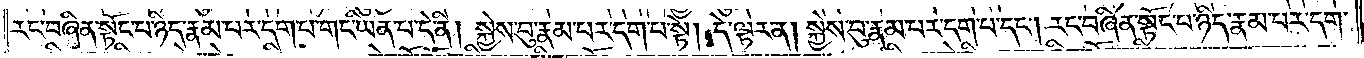རང་བཞིན་སྟོང་པ་ཉིད་རྣམ་པར་དག་པ་གང་ཡིན་པ་དེ་ནི། སྐྱེས་བུ་རྣམ་པར་དག་པ་སྟེ། དེ་ལྟར་ན། སྐྱེས་བུ་རྣམ་པར་དག་པ་དང༌། རང་བཞིན་སྟོང་པ་ཉིད་རྣམ་པར་དག་
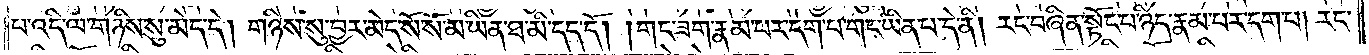པ་འདི་ལ་གཉིས་སུ་མེད་དེ། གཉིས་སུ་བྱར་མེད་སོ་སོ་མ་ཡིན་ཐ་མི་དད་དོ། །གང་ཟག་རྣམ་པར་དག་པ་གང་ཡིན་པ་དེ་ནི། རང་བཞིན་སྟོང་པ་ཉིད་རྣམ་པར་དག་པ། རང་
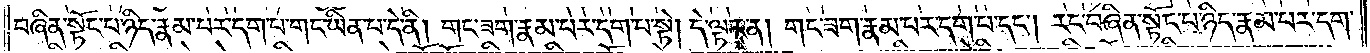བཞིན་སྟོང་པ་ཉིད་རྣམ་པར་དག་པ་གང་ཡིན་པ་དེ་ནི། གང་ཟག་རྣམ་པར་དག་པ་སྟེ། དེ་ལྟར་ན། གང་ཟག་རྣམ་པར་དག་པ་དང༌། རང་བཞིན་སྟོང་པ་ཉིད་རྣམ་པར་དག་
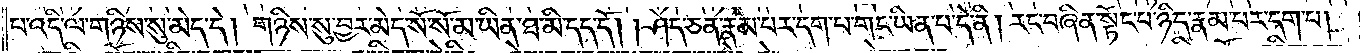པ་འདི་ལ་གཉིས་སུ་མེད་དེ། གཉིས་སུ་བྱར་མེད་སོ་སོ་མ་ཡིན་ཐ་མི་དད་དོ། །ཤེད་ཅན་རྣམ་པར་དག་པ་གང་ཡིན་པ་དེ་ནི། རང་བཞིན་སྟོང་པ་ཉིད་རྣམ་པར་དག་པ།
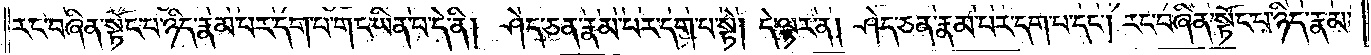རང་བཞིན་སྟོང་པ་ཉིད་རྣམ་པར་དག་པ་གང་ཡིན་པ་དེ་ནི། ཤེད་ཅན་རྣམ་པར་དག་པ་སྟེ། དེ་ལྟར་ན། ཤེད་ཅན་རྣམ་པར་དག་པ་དང༌། རང་བཞིན་སྟོང་པ་ཉིད་རྣམ་
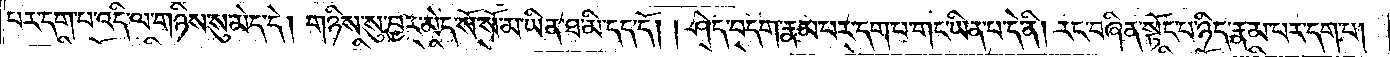པར་དག་པ་འདི་ལ་གཉིས་སུ་མེད་དེ། གཉིས་སུ་བྱར་མེད་སོ་སོ་མ་ཡིན་ཐ་མི་དད་དོ། །ཤེད་བདག་རྣམ་པར་དག་པ་གང་ཡིན་པ་དེ་ནི། རང་བཞིན་སྟོང་པ་ཉིད་རྣམ་པར་དག་པ།
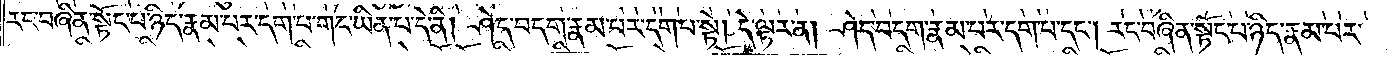རང་བཞིན་སྟོང་པ་ཉིད་རྣམ་པར་དག་པ་གང་ཡིན་པ་དེ་ནི། ཤེད་བདག་རྣམ་པར་དག་པ་སྟེ། དེ་ལྟར་ན། ཤེད་བདག་རྣམ་པར་དག་པ་དང༌། རང་བཞིན་སྟོང་པ་ཉིད་རྣམ་པར་
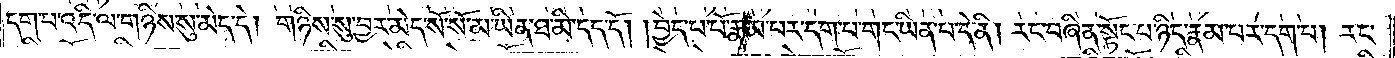དག་པ་འདི་ལ་གཉིས་སུ་མེད་དེ། གཉིས་སུ་བྱར་མེད་སོ་སོ་མ་ཡིན་ཐ་མི་དད་དོ། །བྱེད་པ་པོ་རྣམ་པར་དག་པ་གང་ཡིན་པ་དེ་ནི། རང་བཞིན་སྟོང་པ་ཉིད་རྣམ་པར་དག་པ། རང་
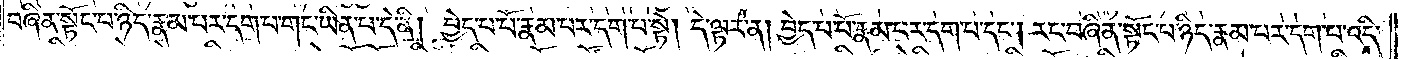བཞིན་སྟོང་པ་ཉིད་རྣམ་པར་དག་པ་གང་ཡིན་པ་དེ་ནི། བྱེད་པ་པོ་རྣམ་པར་དག་པ་སྟེ། དེ་ལྟར་ན། བྱེད་པ་པོ་རྣམ་པར་དག་པ་དང༌། རང་བཞིན་སྟོང་པ་ཉིད་རྣམ་པར་དག་པ་འདི་
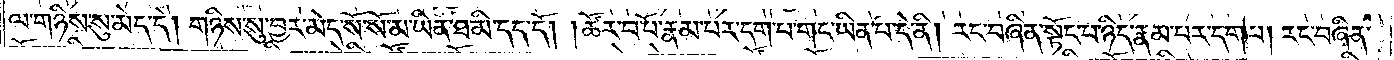ལ་གཉིས་སུ་མེད་དེ། གཉིས་སུ་བྱར་མེད་སོ་སོ་མ་ཡིན་ཐ་མི་དད་དོ། །ཚོར་བ་པོ་རྣམ་པར་དག་པ་གང་ཡིན་པ་དེ་ནི། རང་བཞིན་སྟོང་པ་ཉིད་རྣམ་པར་དག་པ། རང་བཞིན་
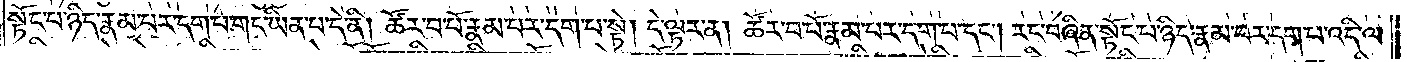སྟོང་པ་ཉིད་རྣམ་པར་དག་པ་གང་ཡིན་པ་དེ་ནི། ཚོར་བ་པོ་རྣམ་པར་དག་པ་སྟེ། དེ་ལྟར་ན། ཚོར་བ་པོ་རྣམ་པར་དག་པ་དང༌། རང་བཞིན་སྟོང་པ་ཉིད་རྣམ་པར་དག་པ་འདི་ལ་
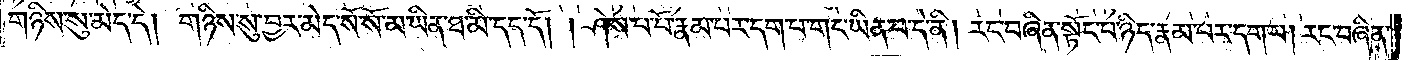གཉིས་སུ་མེད་དེ། གཉིས་སུ་བྱར་མེད་སོ་སོ་མ་ཡིན་ཐ་མི་དད་དོ། །ཤེས་པ་པོ་རྣམ་པར་དག་པ་གང་ཡིན་པ་དེ་ནི། རང་བཞིན་སྟོང་པ་ཉིད་རྣམ་པར་དག་པ། རང་བཞིན་
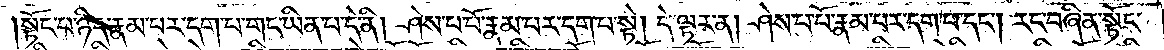སྟོང་པ་ཉིད་རྣམ་པར་དག་པ་གང་ཡིན་པ་དེ་ནི། ཤེས་པ་པོ་རྣམ་པར་དག་པ་སྟེ། དེ་ལྟར་ན། ཤེས་པ་པོ་རྣམ་པར་དག་པ་དང༌། རང་བཞིན་སྟོང་
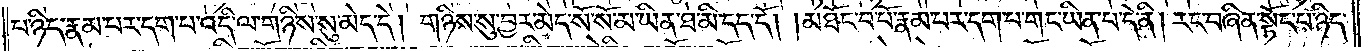པ་ཉིད་རྣམ་པར་དག་པ་འདི་ལ་གཉིས་སུ་མེད་དེ། གཉིས་སུ་བྱར་མེད་སོ་སོ་མ་ཡིན་ཐ་མི་དད་དོ། །མཐོང་བ་པོ་རྣམ་པར་དག་པ་གང་ཡིན་པ་དེ་ནི། རང་བཞིན་སྟོང་པ་ཉིད་
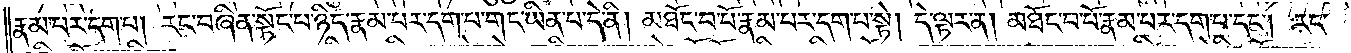རྣམ་པར་དག་པ། རང་བཞིན་སྟོང་པ་ཉིད་རྣམ་པར་དག་པ་གང་ཡིན་པ་དེ་ནི། མཐོང་བ་པོ་རྣམ་པར་དག་པ་སྟེ། དེ་ལྟར་ན། མཐོང་བ་པོ་རྣམ་པར་དག་པ་དང༌། རང་
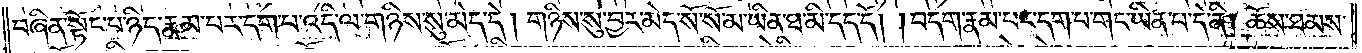བཞིན་སྟོང་པ་ཉིད་རྣམ་པར་དག་པ་འདི་ལ་གཉིས་སུ་མེད་དེ། གཉིས་སུ་བྱར་མེད་སོ་སོ་མ་ཡིན་ཐ་མི་དད་དོ། །བདག་རྣམ་པར་དག་པ་གང་ཡིན་པ་དེ་ནི། ཆོས་ཐམས་
